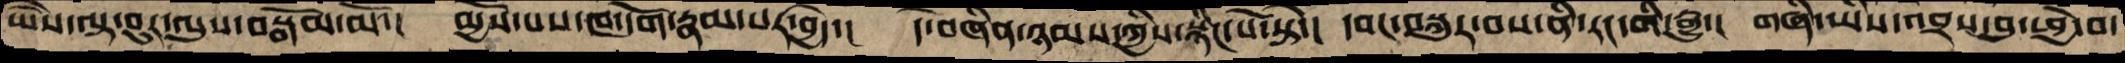ཡཻས་ལྟ་བུར་ལུས་བསྒོམ་མོ་།  མྱོས་པས་ཁ་དོག་རྣམ་པར་བྱེད་།  དེ་བཞིན་ཉམས་ཀྱིས་སྙིང་པོ་སྟེ་།  དབང་བསྐུར་བས་ནི་རང་གི་རྒྱུ་།  གཞི་ཡིས་འབྲས་བུ་ཕྱེ་བ་
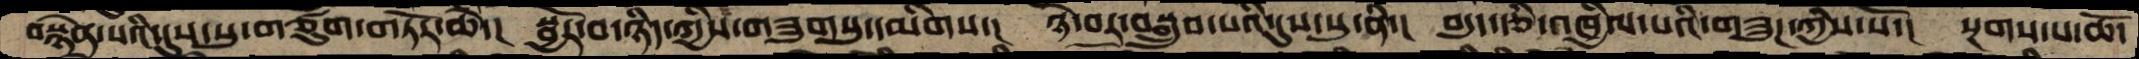བསྙེན་པའི་དུས་སུ་གཙུག་གཏོར་ཆེ་།  སྦྱོར་བ་ཉིད་ཀྱིས་གཟུགསུ་དམིགས་།  ཉེ་བར་བསྒྲུབ་པའི་དུས་སུ་ནི་།  བདུད་རྩི་འཁྱིལ་པའི་གཟུཌ་ཀྱིས་སོ་།  སྔགས་པ་ཆོ་
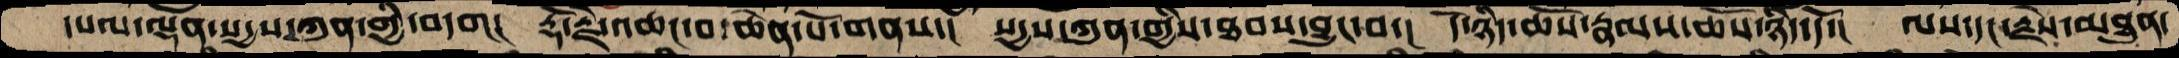དཔལ་ལྡན་སདྱས་ཀུན་གྱི་བདག།  རྡོ་རྗེ་འཆང་བ་ཆེན་པོ་གནས་།  སདྱས་ཀུན་གྱིས་ཐབས་བྱུང་བ་།  དེ་ཉིད་ཆོས་རྣམས་ཆོས་ཉིད་དོ་།  ལས་དང་རྗེས་མཐུན་
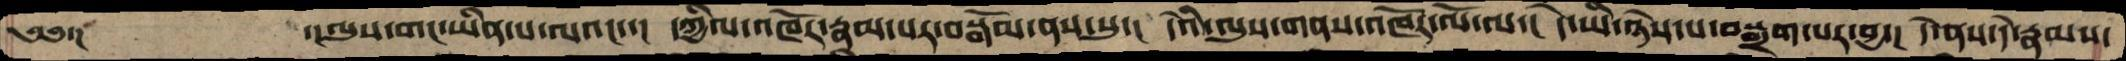༄༅་།   ་།ལུས་གང་ཡིན་པ་ལའང་་།  དཀྱིལ་འཁོར་རྣམ་པར་བསྒོམ་ནས་སུ་།  དེའི་ལུས་གནས་འཁོར་ལོ་ལ་།  དེ་ཡི་ཉེས་པ་བསྒྲག་པར་བྱ་།  དེ་ནས་དེ་རྣམས་
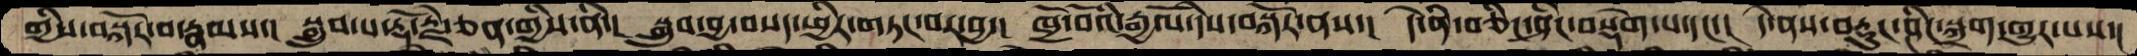གྱིས་བསྐོར་བ་རྣམས་།  སྒྲུབ་པ་རྡོ་རྗེ་ཅན་གྱིས་ནི་།   སྒྲུབ་བྱ་བསད་ཕྱིར་གཏང་བར་བྱ་།  ཁྲོ་བོའི་རྒྱལོ་དེས་བསྐོར་ནས་།  དེ་ནི་བཅིང་ཤིང་བསྡེག་པ་དང་་།   དེ་ནས་བརྡུང་ཤིང་སྐྲག་གྱུར་པས་།
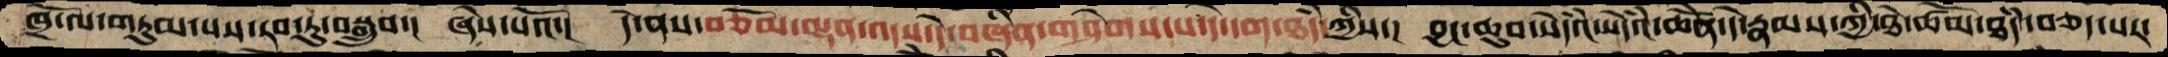ཁྲོ་ལ་གཏུམ་པས་རབ་ཏུ་བསྒྲུབ་།  ཞེས་པའོ་།  དེ་ནས་བཅོམ་ལྡན་འདས་དེ་བཞིན་གཤེགས་པ་དེ་དག་ཐཾད་ཀྱིས་།  བྱང་ཆུབ་སེདཾའ་སེདཾའ་ཆེནོ་དེ་རྣམས་ཀྱི་ཐེ་ཚོམ་ཐཾད་བཅད་པར་
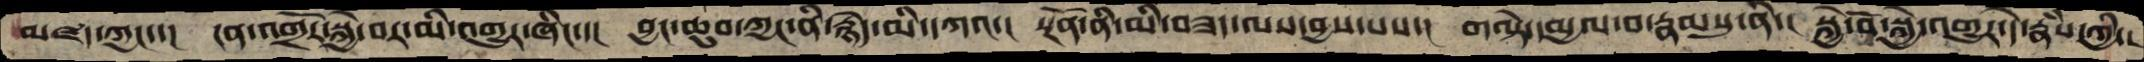མཛད་ཀྱང་་།  ངན་འགྲོར་སྐྱེ་བར་མི་འགྱུར་ཞིང་་།  བྱང་ཆུབ་ཀྱང་ནི་རྙེད་མི་དཀའ་།  སྔོན་ནི་མི་བཟད་ལས་བྱས་པས་།  གལྟེ་དམྱལ་བ་རྣམསུ་ནི་།  སྐྱེ་བོ་སྐྱེ་འགྱུར་དེ་རྣཾས་ཀྱི་།
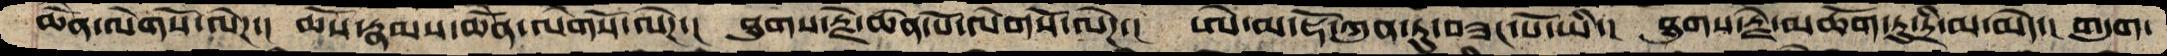ཆེནོ་ལེགསོ་ལེཌ་།  ཆོས་རྣམས་ཆེནོ་ལེགསོ་ལེཌ་།  ཐུགས་རྗེ་ཆེན་པོ་ལེགསོ་ལེཌ་།  ཨེ་མ་ཧོ་ཀུན་ཏུ་བཟང་པོ་ཡི་།  ཐུགས་རྗེ་མཆོག་ཏུ་དྲི་མ་མེད་།  གདུག་
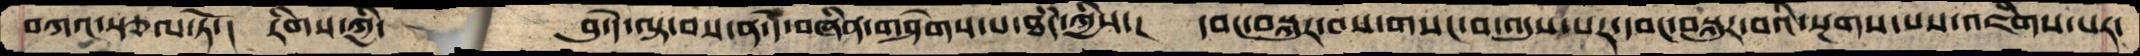བཀའ་སྩལ་ཏེ་།  རིགས་ཀྱི་  བུ་དེ་ལྟ་བས་ན་དེ་བཞིན་གཤེགས་པ་ཐཾད་ཀྱིས་།  དབང་བསྐུར་བས་གསང་བ་འདུས་པར་དབང་བསྐུར་བའི་སྔགས་པས་འཇིགས་པར་
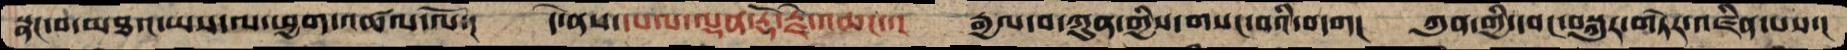སྣང་བ་མཐའ་ཡས་ལ་ཕྱག་འཚལ་ལོ་།  དེ་ནས་དཔལ་ལྡན་རྡོ་རྗེ་འཆང་་།  རྒྱལ་བ་ཀུན་གྱིས་གསང་བའི་བདག།  ཀུན་གྱི་དབང་བསྐུར་གཏེར་འཛིན་པས་།
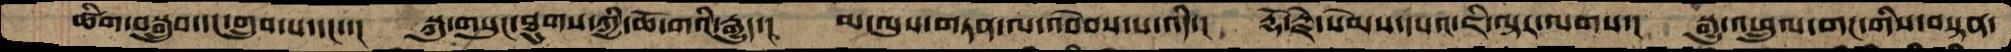ཚིག་བསྒྲུབ་དང་གྲུབ་པ་དང་་།  སྐུ་གསུང་ཐུགས་ཀྱི་ཆོ་གའི་རྒྱུད་།  མ་ལུས་གཏན་ལ་འབེབས་པ་འདི་།  རྡོ་རྗེ་སེམས་དཔའ་ཇི་ལྟར་ལགས་།  སྒྱུ་འཕྲུལ་གང་གིས་བསྟན་
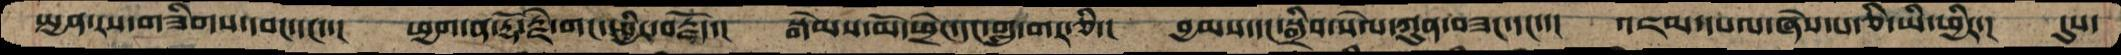སྤྱན་རས་གཟིགས་དབང་དང་་།  ཕྱག་ན་རྡོ་རྗེ་གང་ཕྱིར་བརྗོད་།  སྒེམས་མོ་ཕྲེང་དང་གླུ་གར་ཅི་།  བྱམས་དང་སྒྲིབ་སེལ་ཀུན་བཟང་དང་་།  འཇམ་དཔལ་ཞེས་པ་ཅི་ཡི་ཕྱིར་།  དུས་
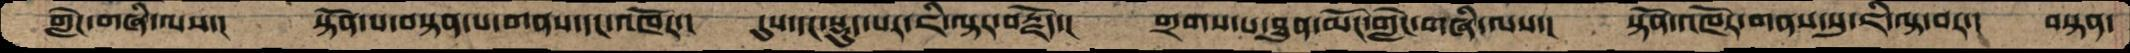གླེང་གཞི་ལས་།  སྟོན་པ་བསྟན་པ་གནས་དང་་འཁོར་།  དུས་དང་སྡུད་པར་ཇི་ལྟར་བརྗོད་།  གྲགས་པ་ཐུན་མོང་གླེང་གཞི་ལས་།  སྟོན་འཁོར་གནས་སུ་ཇི་ལྟ་བར་།  བསྟན་
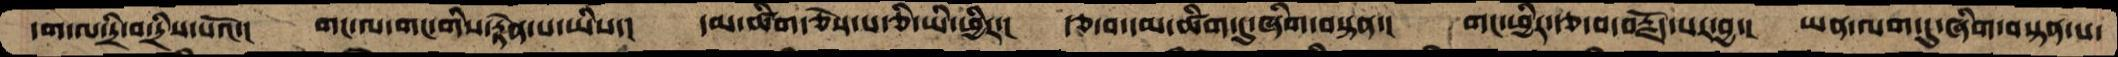དག་ལདྲི་བ་དྲིས་པའོ་།  གང་ལ་གང་གིས་རྟེན་པ་ཡིས་།  དམ་ཚིག་ཅེས་པ་ཅི་ཡི་ཕྱིར་།  རྩ་བ་དམ་ཚིག་དུ་ཞིག་བསྟན་།  གང་ཕྱིར་རྩ་བ་བརྗོད་པར་བྱ་།  ཡན་ལག་དུ་ཞིག་བསྟན་པ་
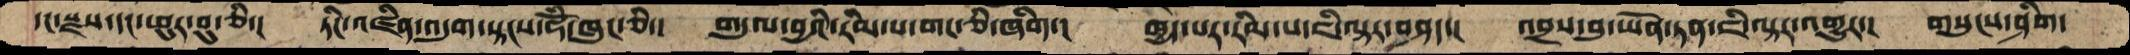དང་སྫས་དང་ཕུར་བུ་ཅི་།  ཏིང་འཛིན་འདུག་སྟངས་ཧོཾ་ཁུང་ཅི་།  གདུལ་བྱའི་རིམ་པ་གང་ཅི་ཞིག་།  ཁྱད་པར་རིམ་པ་ཇི་ལྟར་བཤད་།  འབྲས་བུ་ཡོན་ཏན་ཇི་ལྟར་འགྱུར་།  གསུངས་ཤིག་
